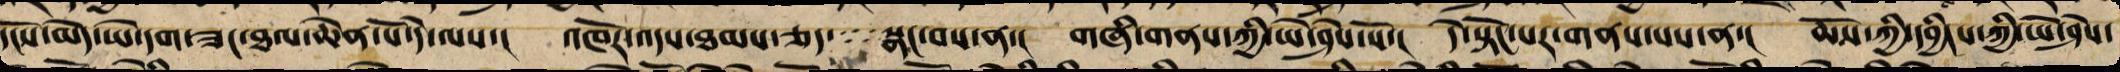དངོས་མེད་ཡེ་དག་ཟང་ཐལ་ཆེན་པོ་དེ་ལས་། འཁོར་འདས་ཐམས་ཅད་་་སྣང་བས་ན་། གཞི་གནས་ཀྱི་ཡེ་ཤེས་སོ་། དེ་སྟོང་པར་གནས་པས་ན་། ཆོས་ཀྱི་དབྱིངས་ཀྱི་ཡེ་ཤེས་
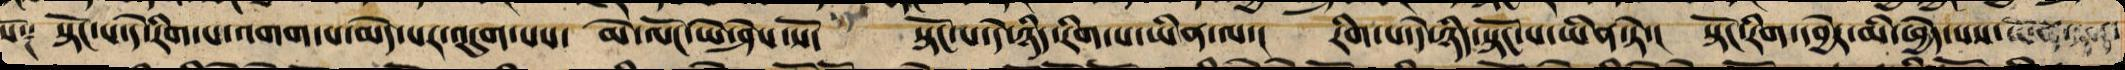སོ༑ སྟོང་བ་དེ་རིག་པ་འགག་པ་མེད་པར་འདུག་པས་ མེ་ལོང་ཡེ་ཤེས་སོ་། སྟོང་པ་དེ་ཉིད་རིག་པ་ཡིན་ལ་། རིག་པ་དེ་ཉིད་སྟོང་པ་ཡིན་ཏེ་། སྟོང་རིག་དབྱེར་མི་ཕྱེད་པས་
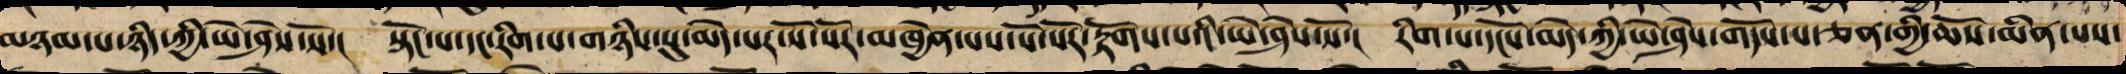མཉམ་པ་ཉིད་ཀྱི་ཡེ་ཤེས་སོ་། སྟོང་པ་དང་རིག་པ་གཉིས་སུ་མེད་པ་སོ་སོར་མཁྱེན་པས་སོ་སོར་རྟོགས་པའི་ཡེ་ཤེས་སོ་། རིག་པ་དངོས་མེད་ཀྱི་ཡེ་ཤེས་གདོས་པ་ཅན་གྱི་ཆོས་མིན་པས་
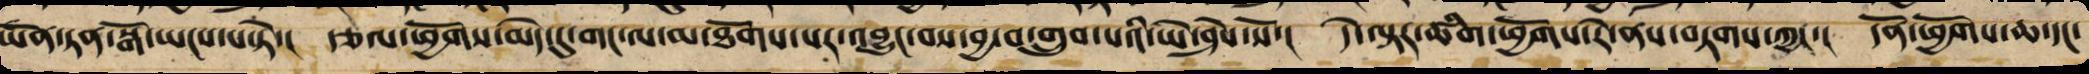ཡོན་ཏན་གྱི་སྒོ་ཡངས་པ་ཏེ་། རྩལ་ཕྱོགས་མེད་དུ་གང་ལ་མ་ཐོགས་པར་འབྱུང་བས་བྱ་བ་གྲུབ་པའི་ཡེ་ཤེས་སོ་། དེ་ལྟར་ཚིག་ཕྱོགས་རེ་ནས་བཏགས་ཀྱང་། དོན་ཕྱོགས་ཆ་དང་
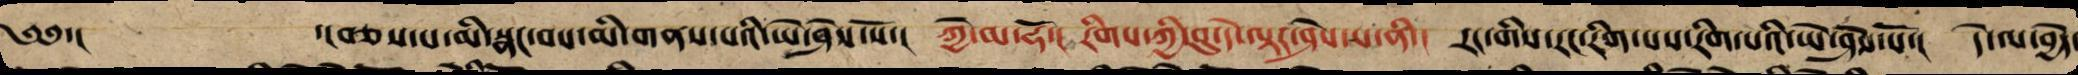༄༅་།  ་།བཅས་པ་མི་སྣང་བས་མི་གནས་པའི་ཡེ་ཤེས་སོ་། ཀྱེ་མ་ཧོ་། རིགས་ཀྱི་བུ་དེ་ལྟར་ཤེས་པ་ནི་། རང་གིས་རང་རིག་པས་རིག་པའི་ཡེ་ཤེས་སོ་། དེ་ལ་བྱེད་
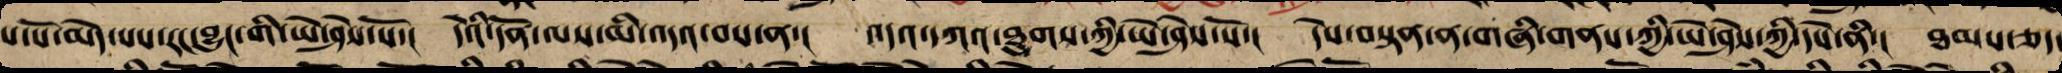པ་པོ་མེད་པས་རང་བྱུང་གི་ཡེ་ཤེས་སོ་། དེའི་དོན་ལས་མི་འདའ་བས་ན་། འདའ་ཀ་ཐུགས་ཀྱི་ཡེ་ཤེས་སོ་། དཔེ་བསྟན་ན་གཞི་གནས་ཀྱི་ཡེ་ཤེས་ཀྱི་དཔེ་ནི་། ཐམས་ཅད་
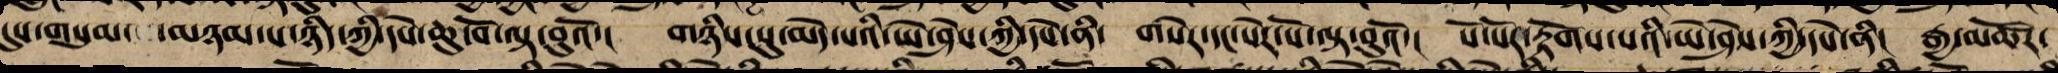དུས་གསུམ་མཉམ་པ་ཉིད་ཀྱི་དཔེ་ཆུ་བོ་ལྟ་བུའོ་། གཉིས་སུ་མེད་པའི་ཡེ་ཤེས་ཀྱི་དཔེ་ནི་། གསེར་དང་སེར་པོ་ལྟ་བུའོ་། སོ་སོར་རྟོགས་པའི་ཡེ་ཤེས་ཀྱི་དཔེ་ནི་། རྒྱ་མཚོར་
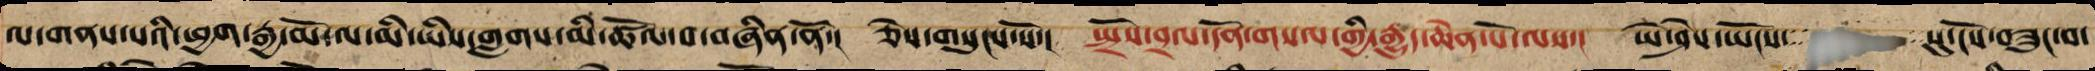ལ་གནས་པའི་ཕྱག་རྒྱ་མོ་ལ་མི་ཡིས་གླགས་མི་ཚོལ་བ་བཞིན་ནོ་། ཅེས་གསུངས་སོ་། སྤྲོས་བྲལ་དོན་གསལ་གྱི་རྒྱུད་ཆེན་པོ་ལས་། ཡེ་ཤེས་ཡོངས་་་སུ་ངོས་བཟུང་བ་
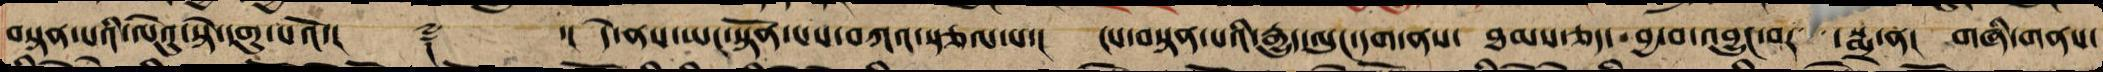བསྟནཔའི་ལེའུ་སྟེ་དགུ་པའོ་།། ༈   ་།། དེ་ནས་ཡང་སྟོན་པས་བཀའ་སྩལ་པ་། ངས་བསྟན་པའི་རྒྱུད་ལུང་དག་ནས་། ཐམས་ཅད་འབྱུང་བར་་་སྨྲ་ན། གཞི་གནས་
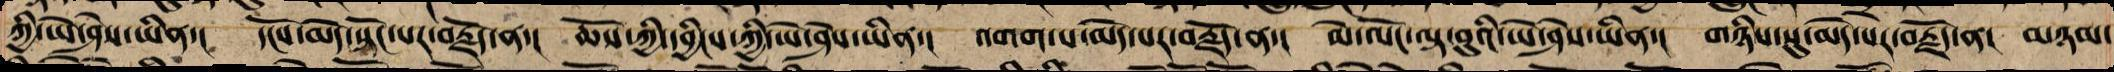ཀྱི་ཡེ་ཤེས་ཡིན་། དངོས་མེད་སྟོང་པར་བརྗོད་ན་། ཆོས་ཀྱི་དབྱིངས་ཀྱི་ཡེ་ཤེས་ཡིན་། འགགས་པ་མེད་པར་བརྗོད་ན་། མེ་ལོང་ལྟ་བུའི་ཡེ་ཤེས་ཡིན་། གཉིས་སུ་མེད་པར་བརྗོད་ན། མཉམ་
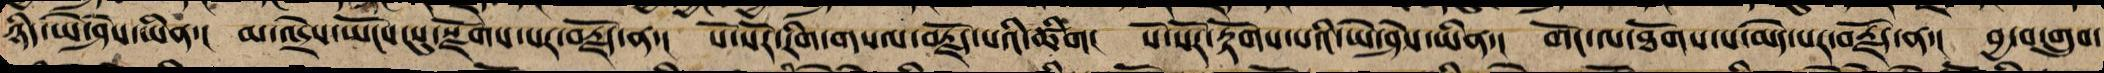ཉིད་ཡེ་ཤེས་ཡིན་། མ་འདྲེས་ཡོངས་སུ་སྫོགས་པར་བརྗོད་ན་། སོ་སོར་རིག་གསལ་བརྗོད་ཚིག། སོ་སོར་རྟོགས་པའི་ཡེ་ཤེས་ཡིན་། གོང་ལ་ཐོགས་པ་མེད་པར་བརྗོད་ན་། བྱ་བ་གྲུབ་
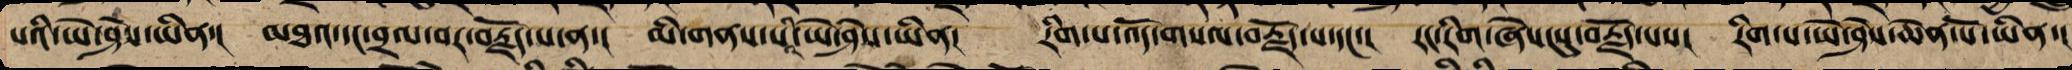པའི་ཡེ་ཤེས་ཡིན་། མཐའ་དང་བྲལ་བར་བརྗོད་པ་ན་། མི་གནས་པ་ཡེ་ཤེས་ཡིན་། རིག་པ་འོད་གསལ་བརྗོད་པ་དང་། རང་རིག་ཞེས་སུ་བརྗོད་པས། རིག་པ་ཡེ་ཤེས་ཆེན་པོ་ཡིན་།
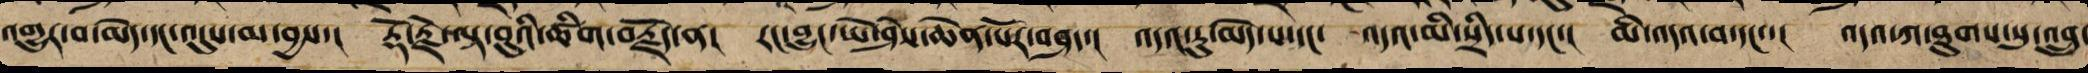འགྱུར་བ་མེད་དང་འདུས་མ་བྱས་། རྡོ་རྗེ་ལྟ་བུའི་ཚིག་བརྗོད་ན། རང་བྱུང་ཡེ་ཤེས་ཆེན་པོར་བཤད་། འདའ་རུ་མེད་པ་དང་ འདའ་མི་སྲིད་པ་དང་། མི་འདའ་བ་དང་་། འདའ་ཀ་ཐུགས་སུ་འབྲུ་
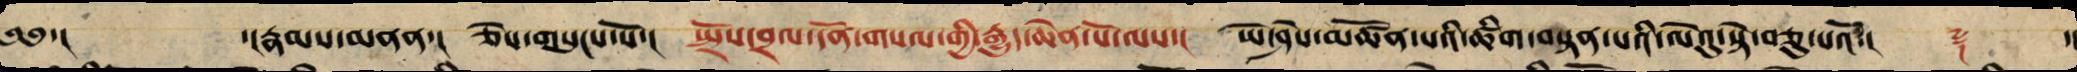༄༅་། ་།རྣམས་མནན་། ཅེས་གསུངས་སོ་། སྤྲོས་བྲལ་དོན་གསལ་གྱི་རྒྱུད་ཆེན་པོ་ལས་། ཡེ་ཤེས་མཚོན་པའི་ཚིག་བསྟན་པའི་ལེའུ་སྟེ་བཅུ་པའོ་།། ༈ ་།
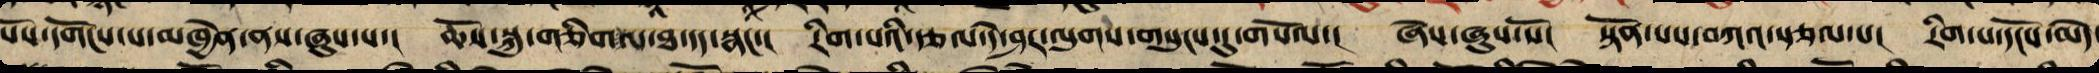པོས་དགོངས་པ་མཁྱེན་ནས་ཞུས་པ་། ཆོས་སྐུ་གཅིག་ལ་ཐ་དད་སྣང་། རིག་པའི་རྩལ་དེ་ཤར་ལུགས་གསུངས་དུ་གསོལ་། ཞེས་ཞུས་སོ་། སྟོན་པས་བཀའ་སྩལ་པ་། རིག་པ་དངོས་མེད
